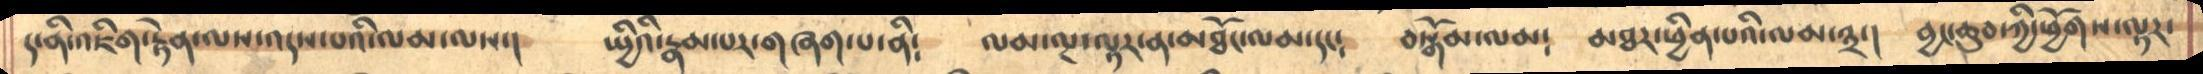ད་ནི་འཇིག་རྟེན་ལས་འདས་པའི་ལམ་ལས་།   སྤྱིའི་རྣམ་པར་གཞག་པ་ནི༴    ལམ་ལྔ་ལྟར་ན་མཐོང་ལམ་དང༴   བསྒོམ་ལམ༴  མཐར་ཕྱིན་པའི་ལམ་༣་།   བྱང་ཆུབ་ཀྱི་ཕྱོགས་ལྟར་
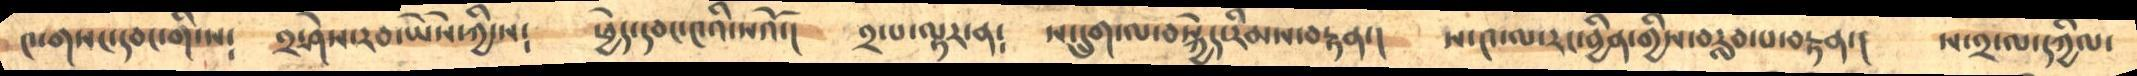༤་གསང་དབང་གི་ས༴   ༢་ཤེས་རབ་ཡཻས་ཀྱི་ས༴   ཕྱེད་དབང་༤འི་སའོ་།   ༢་པ་ལྟར་ན༴    ས་དྲུག་ལ་བསྐྱེད་རིམས་བརྟན་།   ས་༤་ལ་རང་བྱིན་གྱིས་བརླབ་པ་བརྟན་།   ས་༢་ལ་དཀྱིལ་
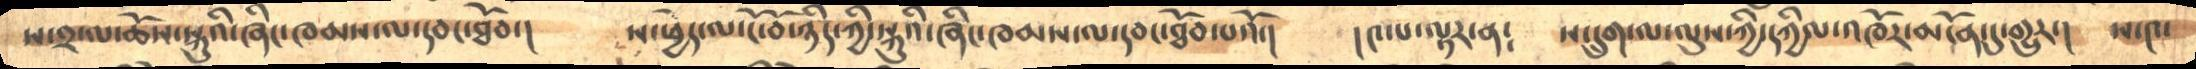ས་༢་ལ་ཆོས་སྐུའི་ཞིང་ཁམས་ལ་དབང་ཐོབ་།    ས་ཕྱེད་ལ་ངོ་བོ་ཉིད་ཀྱི་སྐུའི་ཞིང་ཁམས་ལ་དབང་ཐོབ་པའོ་།  །༤་པ་ལྟར་ན༴  ས་དྲུག་ལ་ལུས་ཀྱི་དཀྱིལ་འཁོར་མངོན་དུ་གྱུར་།    ས་༤་
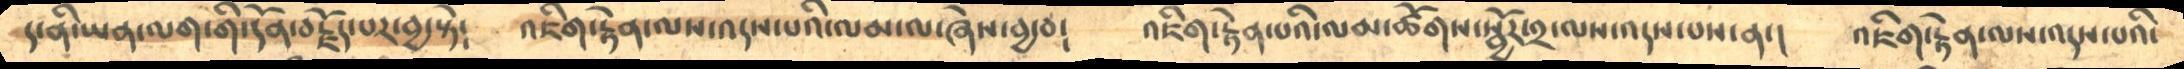ད་ནི་ཡན་ལག་གི་དོན་བརྗོད་པར་བྱ་སྟེ༴   འཇིག་རྟེན་ལས་འདས་པའི་ལམ་ལ་ཞེས་བྱ་བ༴   འཇིག་རྟེན་པའི་ལམ་ཚོགས་སྦྱོར་༢་ལས་འདས་པས་ན་།   འཇིག་རྟེན་ལས་འདས་པའི་
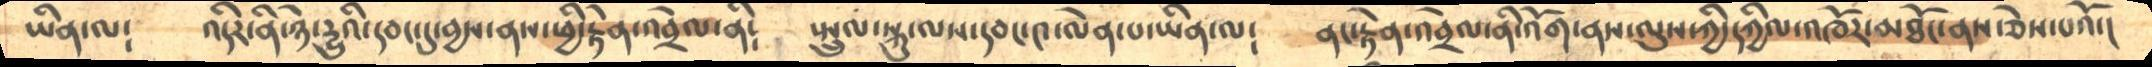ཡིན་ལ༴     འདིར་ནི་ཉེ་དྱུའི་དབང་དུ་བྱས་ནས་ཕྱི་རྟེན་འབྲེལ་ནི༴   སྤྲུལ་སྐུ་ལས་དབང་༤་ལེན་པ་ཡིན་ལ༴   ནང་རྟེན་འབྲེལ་ནི་འོག་ནས་ལུས་ཀྱི་དཀྱིལ་འཁོར་མཐོང་ནས་ཅེས་པའོ་།
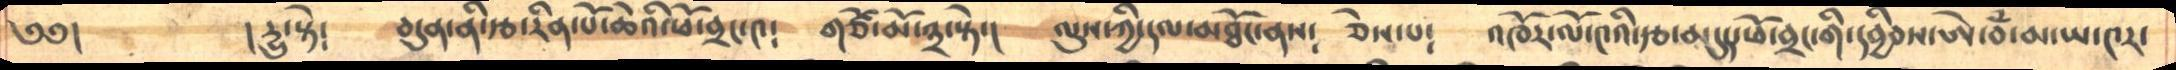༄༅།        ། དྱུ་སྟེ༴   བདུད་ནི་རྩ་རིན་པོ་ཆེའི་ཕོ་བྲང་༤༴    གཙོ་མོ་༢་སྟེ་།    ལུས་ཀྱི་དལ་མཐོང་ནས༴    ཅེས་པ༴    འཁོར་ལོ་༤འི་རྩ་མདུད་ཕོ་བྲང་གི་དབྱིབས་ཨེ་བཾ་མ་ཡ་༤ར་
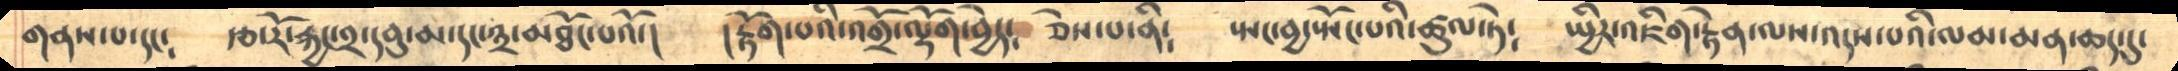གནས་པ་དང༴    རྩ་རོ་རྐྱང་༢་དབུ་མ་དང་༣་མཐོང་པའོ་།    །རྟོག་པའི་འགྲོ་ལྡོག་བྱེད༴   ཅེས་པ་ནི༴   སྤང་བྱ་སྤོང་པའི་ཚུལ་ཏེ༴    སྤྱིར་འཇིག་རྟེན་ལས་འདས་པའི་ལམ་མན་ཆད་དུ་
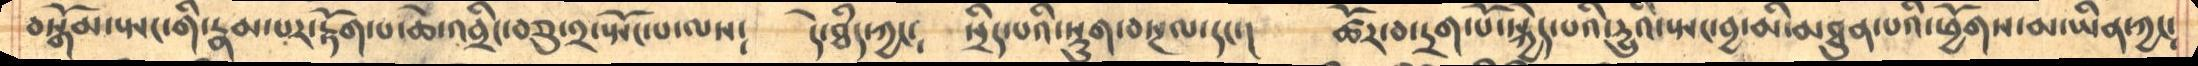བསྒོམ་སྤང་གི་རྣམ་པར་རྟོག་པ་ཆེ་འབྲིང་བཅུ་༢་སྤོང་པ་ལས༴   དེ་ཐྃད་ཀྱང༴   སྲིད་པའི་སྡུག་བསྔལ་དང་།    ཚོར་བ་དྲག་པོ་སྐྱེད་པའི་དྱུའི་སྤང་བྱ་མི་མཐུན་པའི་ཕྱོགས་མ་ཡིན་ཀྱང༴
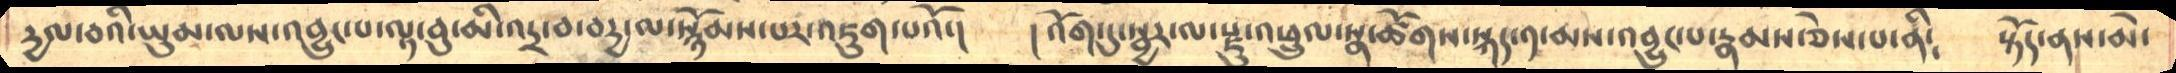དྱལ་བའི་ཡུམ་ལས་འབྱུང་པ་ལྟ་བུ་མི་འདྲ་བ་བདྱ་ལ་སྙོམས་པར་འཇུག་པའོ་།    །འོག་དུ་སྦྱར་ལ་རྫུ་འཕྲུལ་སྣ་ཚོགས་སྐད་༡་མས་འབྱུང་པ་རྣམས་ཅེས་པ་ནི༴    སྟོད་ནས་མེ་
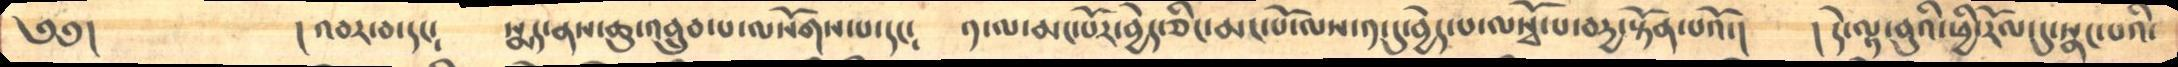༄༅།          ། འབར་བ་དང༴     སྨད་ནས་ཆུ་འབྲུབ་པ་ལསོགས་པ་དང༴   ༡་ལ་མང་པོར་བྱེད་ཅིང་མང་པོ་ལས་༡་དུ་བྱེད་པ་ལསྭོ་པ་བདྱ་སྟོན་པའོ་།   ། དེ་ལྟ་བུའི་ཕྱི་རོལ་དུ་སྣང་པའི་
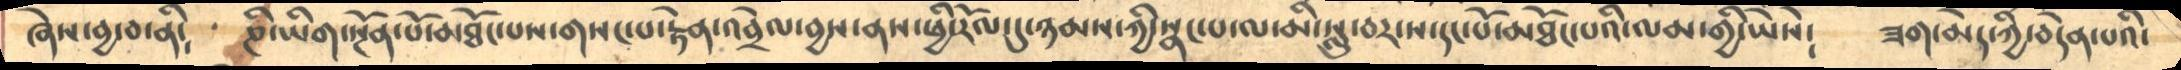ཞེས་བྱ་བ་ནི༴    ཎི་ཡིག་སྔོན་པོ་མཐོང་པས་གསང་པ་རྟེན་འབྲེལ་བྱས་ནས་ཕྱི་རོལ་དུ་ཉམས་ཀྱི་སྣང་པ་ལ་མི་སླུ་བར་ས་དང་པོ་མཐོང་པའི་ལམ་གྱི་ཡཻས༴    ཟག་མེད་ཀྱི་བདེན་པའི་
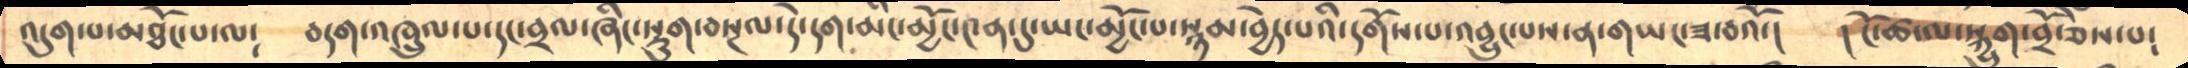འདུག་པ་མཐོང་པ་ལ༴    བདག་འཁྲུལ་པ་དང་བྲལ་ཞིང་སྡུག་བསྔལ་དེ་དག་མིང་མྱོང་༤ན་དུ་ཡང་མྱོང་པ་སྙམ་བྱེད་པའི་དགོས་པ་འབྱུང་པས་ན་གཡང་ཟ་བའོ་།   །ངོ་ཚ་ལ་སྐྱུག་བྲོ་ཅེས་པ༴
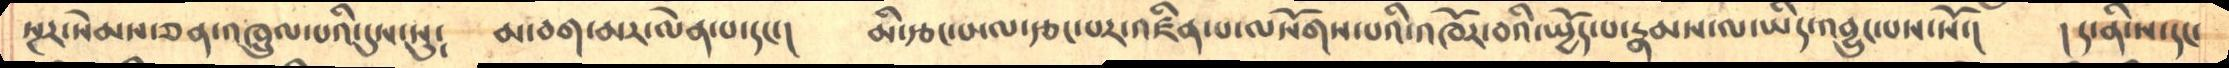སྔར་སེམས་ཅན་འཁྲུལ་པའི་དུས་སུ༴     མ་བག་མར་ལེན་པ་དང་།    མི་རྩང་པ་ལ་རྩང་པར་འཛིན་པ་ལསོགས་པའི་འཁོར་བའི་སྤྱོད་པ་རྣམས་ལ་ཡིད་འབྱུང་པས་སོ་།    །ད་ནི་ས་དང་
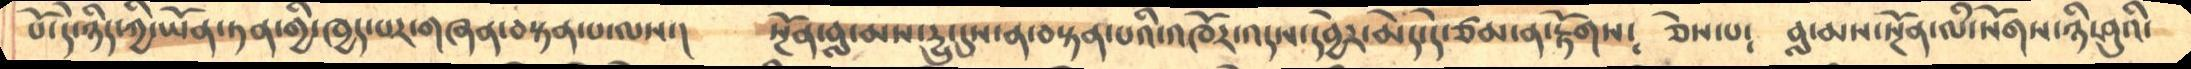པོ་དེ་ཉིད་ཀྱི་ཡོན་ཏན་གྱི་ཁྱད་པར་གཞན་བསྟན་པ་ལས་།     སྔོན་བླ་མས་དྱུ་དུས་ན་བསྟན་པའི་འཁོར་འདས་དབྱེར་མེད་དེ་ཙམ་ན་རྟོགས༴   ཅེས་པ༴    བླ་མས་སྔོན་ལཾ་སོགས་ཉི་ཤུའི་
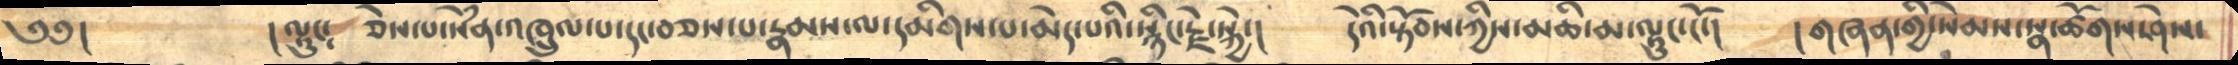༄༅།             །ལྟུང༴  ཅེས་པ་སེཾན་འཁྲུལ་པ་དང་བཅས་པ་རྣམས་ལ་དམིགས་པ་མེད་པའི་སྙིང་རྗེ་སྐྱེ་།   དེའི་སྟོབས་ཀྱིས་མཆི་མ་ལྟུང་ངོ་།   །གཞན་གྱི་སེམས་སྣ་ཚོགས་ཤེས་
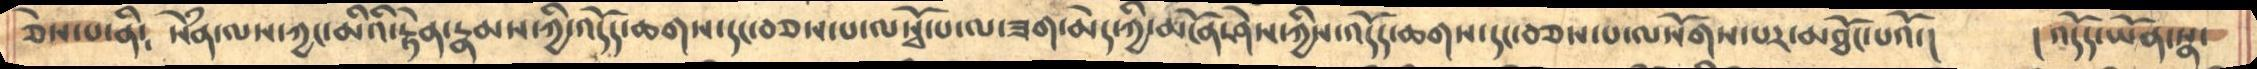ཅེས་པ་ནི༴     སེཾན་ལས་ཀྱང་མིའི་རྟེན་རྣམས་ཀྱི་འདོད་ཆགས་དང་བཅས་པ་ལསྭོ་པ་ལ་ཟག་མེད་ཀྱི་མངོན་ཤེས་ཀྱིས་འདོད་ཆགས་དང་བཅས་པ་ལསོགས་པར་མཐོང་པའོ་།   །འདོད་ཡོན་སྣ་
